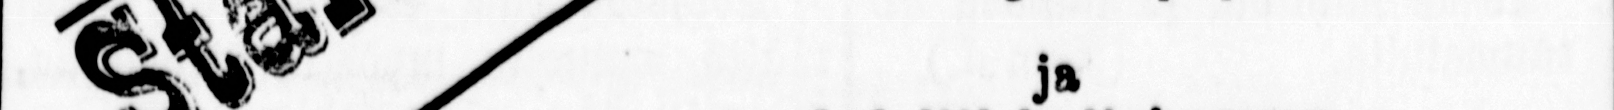ja
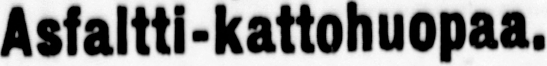Asfaltti-Kattohuopaa.
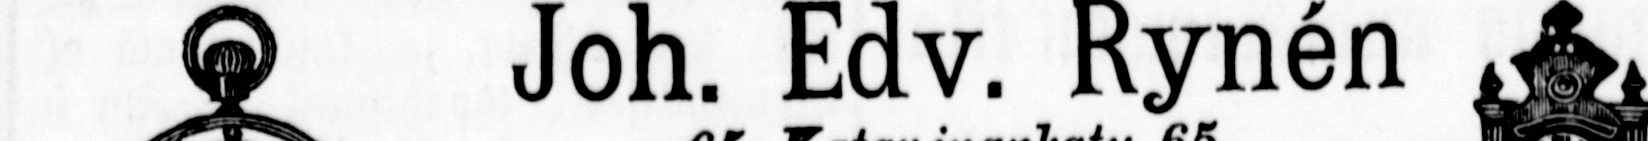Joh. Edv. Rynén
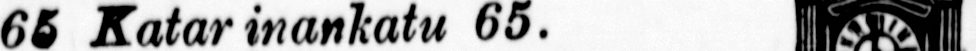65 Katarinankatu 65.
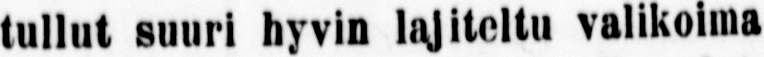Nyt tullut suuri hyvin lajiteltu valikoima
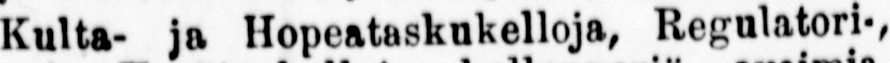Kulta- ja Hopeataskukelloja, Regulatori-,
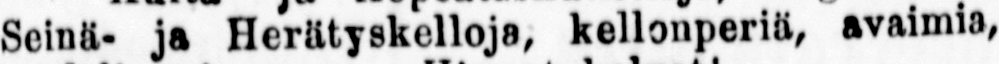Seinä- ja Herätyskelloja, kellonperiä, avaimia,
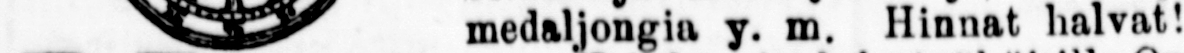medaljongia y. m. Hinnat halvat!
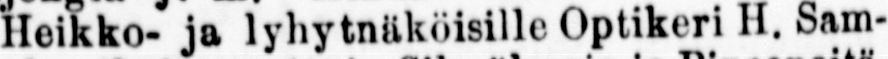Heikko- ja lyhytn ä köisille Optikeri H. Sam-
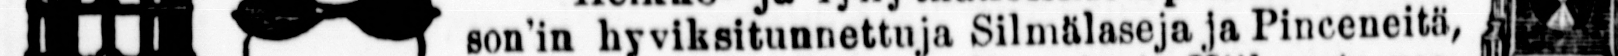son'in hyviksitunnettuja Silmälaseja ja Pinceneitä,
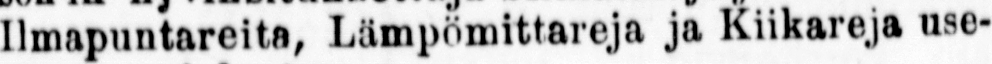Ilmapuntareita, Lämpömittareja ja Kiikareja use-
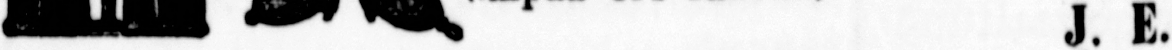ampaa eri laatua.
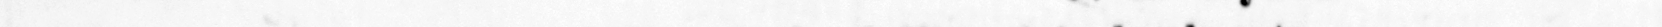J. E. Rynén.
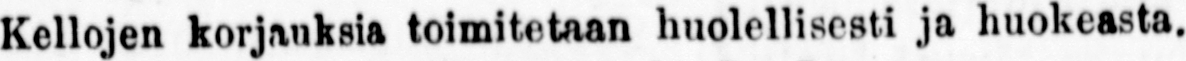Kellojen korjauksia toimitetaan huolellisesti ja huokeasta.
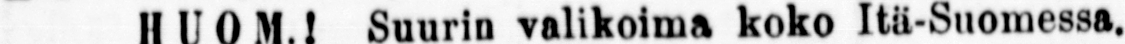HUOM.! Suurin valikoima koko It ä -Suomessa.
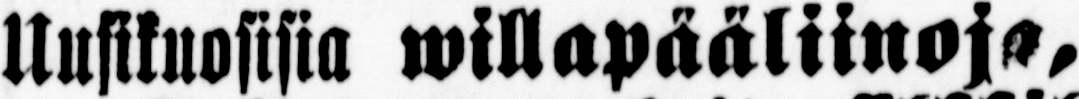Uusikuosisa willapäaliinoja,
